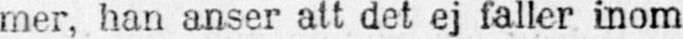mer, han anser att det ej faller inom
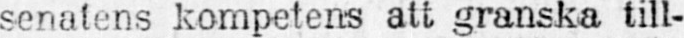senatens kompetens att granska till-
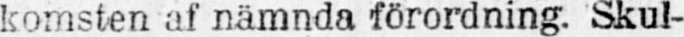komsten af nämnda förordning. Skul-
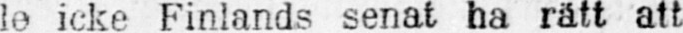lo icke Finlands senat ha rätt att
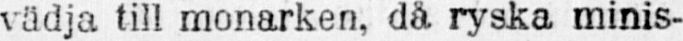vädja till monarken, då ryska minis-
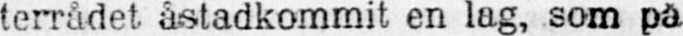terrådet åstadkommit en lag, som på
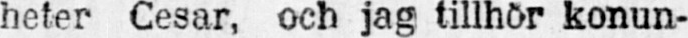heter Cesar, och jag tillhör konun-
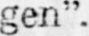gen“.
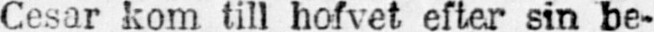Cesar kom till hofvet efter sin be-
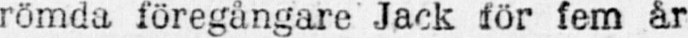römda föregångare Jack för fem år
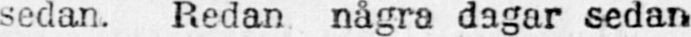sedan. Redan några dagar sedan
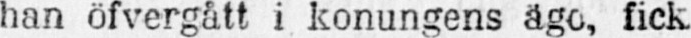han öfvergått i konungens ägo, fick
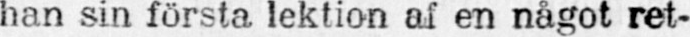han sin första lektion af en något ret-
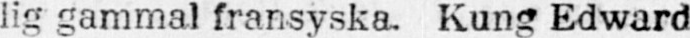lig gammal fransyska. Kung Edward
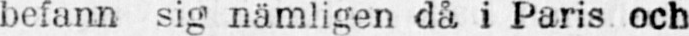befann sig nämligen då i Paris och
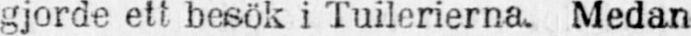gjorde ett besök i Tuilerierna. Medan
